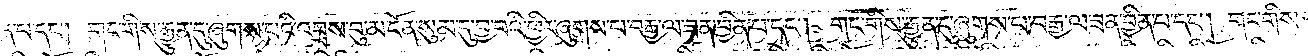ན་པ་དང༌། གང་གིས་རྒྱུན་དུ་ཞུགས་པའི་འབྲས་བུ་མངོན་སུམ་དུ་བྱ་བའི་ཕྱིར་ཞུགས་པ་བརྒྱ་ལ་ཟན་བྱིན་པ་དང༌། གང་གིས་རྒྱུན་དུ་ཞུགས་པ་བརྒྱ་ལ་ཟན་བྱིན་པ་དང༌། གང་གིས་ལན་
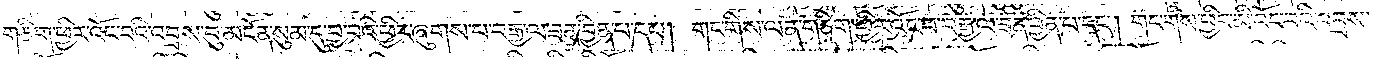གཅིག་ཕྱིར་འོང་བའི་འབྲས་བུ་མངོན་སུམ་དུ་བྱ་བའི་ཕྱིར་ཞུགས་པ་བརྒྱ་ལ་ཟན་བྱིན་པ་དང༌། གང་གིས་ལན་གཅིག་ཕྱིར་འོང་བ་བརྒྱ་ལ་ཟན་བྱིན་པ་དང༌། གང་གིས་ཕྱིར་མི་འོང་བའི་འབྲས་
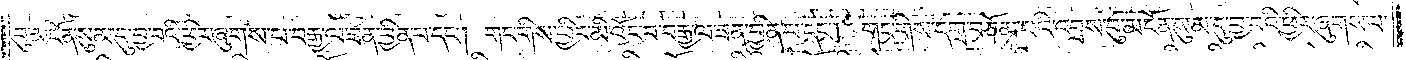བུ་མངོན་སུམ་དུ་བྱ་བའི་ཕྱིར་ཞུགས་པ་བརྒྱ་ལ་ཟན་བྱིན་པ་དང༌། གང་གིས་ཕྱིར་མི་འོང་བ་བརྒྱ་ལ་ཟན་བྱིན་པ་དང༌། གང་གིས་དགྲ་བཅོམ་པའི་འབྲས་བུ་མངོན་སུམ་དུ་བྱ་བའི་ཕྱིར་ཞུགས་པ་
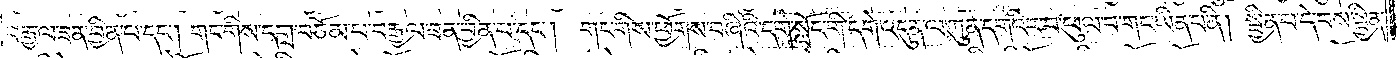བརྒྱ་ལ་ཟན་བྱིན་པ་དང༌། གང་གིས་དགྲ་བཅོམ་པ་བརྒྱ་ལ་ཟན་བྱིན་པ་དང༌། གང་གིས་ཕྱོགས་བཞིའི་དགེ་སློང་གི་དགེ་འདུན་ལ་ཀུན་དགའི་ར་བ་ཕུལ་བ་གང་ཡིན་པ་ནི། སྦྱིན་པ་དེ་བས་སྦྱིན་
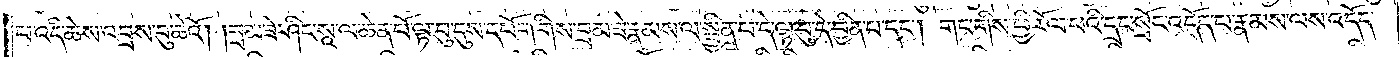པ་འདི་ཆེས་འབྲས་བུ་ཆེའོ། །བྲམ་ཟེ་ཤིང་སཱ་ལ་ཆེན་པོ་ལྟ་བུ་དུས་དཔོག་གིས་བྲམ་ཟེ་རྣམས་ལ་སྦྱིན་པ་དེ་ལྟ་བུ་དེ་བྱིན་པ་དང༌། གང་གིས་ཕྱི་རོལ་པའི་དྲང་སྲོང་འདོད་པ་རྣམས་ལས་འདོད་
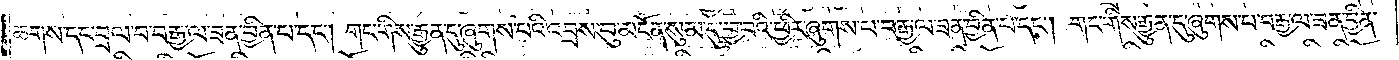ཆགས་དང་བྲལ་བ་བརྒྱ་ལ་ཟན་བྱིན་པ་དང༌། གང་གིས་རྒྱུན་དུ་ཞུགས་པའི་འབྲས་བུ་མངོན་སུམ་དུ་བྱ་བའི་ཕྱིར་ཞུགས་པ་བརྒྱ་ལ་ཟན་བྱིན་པ་དང༌། གང་གིས་རྒྱུན་དུ་ཞུགས་པ་བརྒྱ་ལ་ཟན་བྱིན་
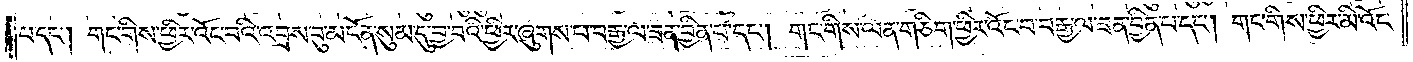པ་དང༌། གང་གིས་ཕྱིར་འོང་བའི་འབྲས་བུ་མངོན་སུམ་དུ་བྱ་བའི་ཕྱིར་ཞུགས་པ་བརྒྱ་ལ་ཟན་བྱིན་པ་དང༌། གང་གིས་ལན་གཅིག་ཕྱིར་འོང་བ་བརྒྱ་ལ་ཟན་བྱིན་པ་དང༌། གང་གིས་ཕྱིར་མི་འོང་
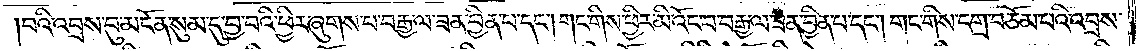བའི་འབྲས་བུ་མངོན་སུམ་དུ་བྱ་བའི་ཕྱིར་ཞུགས་པ་བརྒྱ་ལ་ཟན་བྱིན་པ་དང༌། གང་གིས་ཕྱིར་མི་འོང་བ་བརྒྱ་ལ་ཟན་བྱིན་པ་དང༌། གང་གིས་དགྲ་བཅོམ་པའི་འབྲས་
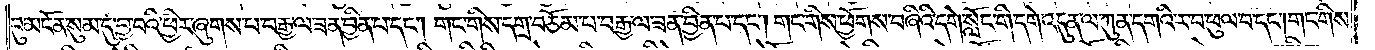བུ་མངོན་སུམ་དུ་བྱ་བའི་ཕྱིར་ཞུགས་པ་བརྒྱ་ལ་ཟན་བྱིན་པ་དང༌། གང་གིས་དགྲ་བཅོམ་པ་བརྒྱ་ལ་ཟན་བྱིན་པ་དང༌། གང་གིས་ཕྱོགས་བཞིའི་དགེ་སློང་གི་དགེ་འདུན་ལ་ཀུན་དགའི་ར་བ་ཕུལ་བ་དང༌། གང་གིས་
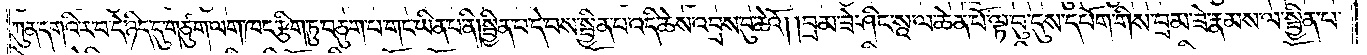ཀུན་དགའི་ར་བ་དེ་ཉིད་དུ་གཙུག་ལག་ཁང་རྩིག་ཏུ་བཅུག་པ་གང་ཡིན་པ་ནི། སྦྱིན་པ་དེ་བས་སྦྱིན་པ་འདི་ཆེས་འབྲས་བུ་ཆེའོ། །བྲམ་ཟེ་ཤིང་སཱ་ལ་ཆེན་པོ་ལྟ་བུ་དུས་དཔོག་གིས་བྲམ་ཟེ་རྣམས་ལ་སྦྱིན་པ་
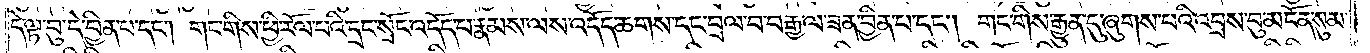དེ་ལྟ་བུ་དེ་བྱིན་པ་དང༌། གང་གིས་ཕྱི་རོལ་པའི་དྲང་སྲོང་འདོད་པ་རྣམས་ལས་འདོད་ཆགས་དང་བྲལ་བ་བརྒྱ་ལ་ཟན་བྱིན་པ་དང༌། གང་གིས་རྒྱུན་དུ་ཞུགས་པའི་འབྲས་བུ་མངོན་སུམ་
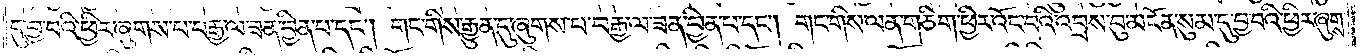དུ་བྱ་བའི་ཕྱིར་ཞུགས་པ་བརྒྱ་ལ་ཟན་བྱིན་པ་དང༌། གང་གིས་རྒྱུན་དུ་ཞུགས་པ་བརྒྱ་ལ་ཟན་བྱིན་པ་དང༌། གང་གིས་ལན་གཅིག་ཕྱིར་འོང་བའི་འབྲས་བུ་མངོན་སུམ་དུ་བྱ་བའི་ཕྱིར་ཞུགས་
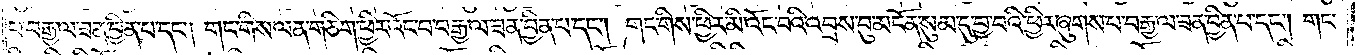པ་བརྒྱ་ལ་ཟན་བྱིན་པ་དང༌། གང་གིས་ལན་གཅིག་ཕྱིར་འོང་བ་བརྒྱ་ལ་ཟན་བྱིན་པ་དང༌། གང་གིས་ཕྱིར་མི་འོང་བའི་འབྲས་བུ་མངོན་སུམ་དུ་བྱ་བའི་ཕྱིར་ཞུགས་པ་བརྒྱ་ལ་ཟན་བྱིན་པ་དང༌། གང་
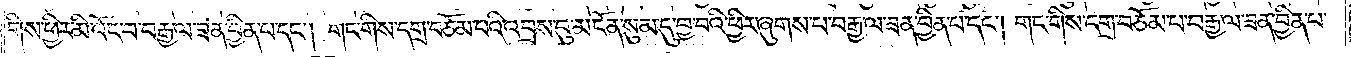གིས་ཕྱིར་མི་འོང་བ་བརྒྱ་ལ་ཟན་བྱིན་པ་དང༌། གང་གིས་དགྲ་བཅོམ་པའི་འབྲས་བུ་མངོན་སུམ་དུ་བྱ་བའི་ཕྱིར་ཞུགས་པ་བརྒྱ་ལ་ཟན་བྱིན་པ་དང༌། གང་གིས་དགྲ་བཅོམ་པ་བརྒྱ་ལ་ཟན་བྱིན་པ་
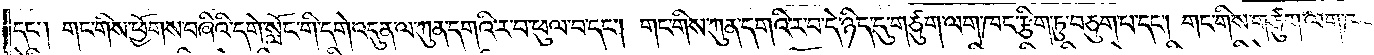དང༌། གང་གིས་ཕྱོགས་བཞིའི་དགེ་སློང་གི་དགེ་འདུན་ལ་ཀུན་དགའི་ར་བ་ཕུལ་བ་དང༌། གང་གིས་ཀུན་དགའི་ར་བ་དེ་ཉིད་དུ་གཙུག་ལག་ཁང་རྩིག་ཏུ་བཅུག་པ་དང༌། གང་གིས་གཙུག་ལག་
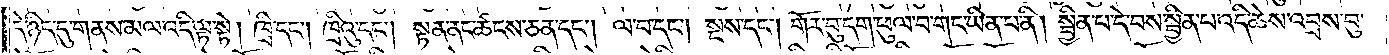དེ་ཉིད་དུ་གནས་མལ་འདི་ལྟ་སྟེ། ཁྲི་དང༌། ཁྲིའུ་དང༌། སྟན་ནང་ཚངས་ཅན་དང༌། ལ་བ་དང༌། སྔས་དང༌། གོར་བུ་དག་ཕུལ་བ་གང་ཡིན་པ་ནི། སྦྱིན་པ་དེ་བས་སྦྱིན་པ་འདི་ཆེས་འབྲས་བུ་
